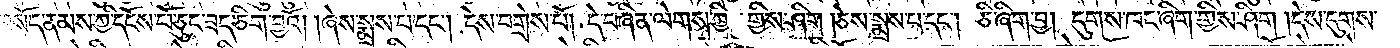བསོད་ནམས་ཀྱི་དངོས་པོ་ཅུང་ཟད་ཅིག་བྱའོ། །ཞེས་སྨྲས་པ་དང༌། དེས་བགྲེས་པོ། དེ་བཞིན་ལེགས་ཀྱི་གྱིས་ཤིག །ཅེས་སྨྲས་པ་དང༌། ཅི་ཞིག་བྱ། དུགས་ཁང་ཞིག་གིས་ཤིག །དེས་དུགས་
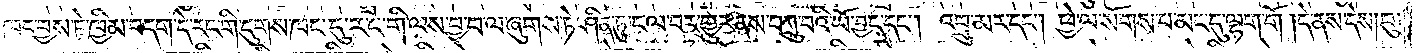ཁང་བྱས་ཏེ་ཁྱིམ་བདག་དེ་རང་གི་དུགས་ཁང་དུ་རང་གི་ལས་བྱ་བ་ལ་ཞུགས་ཏེ་ཤིན་ཏུ་ངལ་བར་གྱུར་ནས་བཀྲུ་བའི་ཡོ་བྱད་དང༌། འབྲུ་མར་དང༌། ཕྱེ་ལ་སོགས་པ་མང་དུ་ལྷག་གོ །དེ་ནས་དེས། བུ་
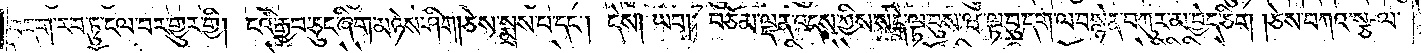བདག་རབ་ཏུ་ངལ་བར་གྱུར་གྱི། ངའི་རྒྱབ་ཅུང་ཞིག་མཉེས་ཤིག །ཅེས་སྨྲས་པ་དང༌། དེས། ཡབ། བཅོམ་ལྡན་འདས་ཀྱིས་སེངྒེ་ལྟ་བུས་ཝ་ལྟ་བུ་དག་ལ་བསྙེན་བཀུར་མ་བྱེད་ཅིག །ཅེས་བཀའ་སྩལ་
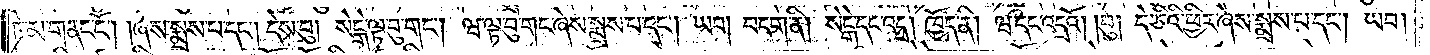ཏེ་མ་གནང་ངོ༌། །ཞེས་སྨྲས་པ་དང༌། དེས་བུ། སེངྒེ་ལྟ་བུ་གང༌། ཝ་ལྟ་བུ་གང་ཞེས་སྨྲས་པ་དང༌། ཡབ། བདག་ནི། སེངྒེ་དང་འདྲ། ཁྱོད་ནི། ཝ་དང་འདྲའོ། །བུ། དེ་ཅིའི་ཕྱིར་ཞེས་སྨྲས་པ་དང༌། ཡབ།
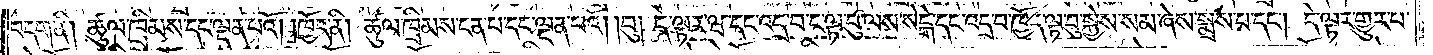བདག་ནི། ཚུལ་ཁྲིམས་དང་ལྡན་པའོ། །ཁྱོད་ནི། ཚུལ་ཁྲིམས་ངན་པ་དང་ལྡན་པའོ། །བུ། དེ་ལྟར་ཝ་དང་འདྲ་བ་ང་ལྟ་བུ་ལས་སེངྒེ་དང་འདྲ་བ་ཁྱོད་ལྟ་བུ་སྐྱེས་སམ་ཞེས་སྨྲས་པ་དང༌། དེ་ལྟར་གྱུར་པ་
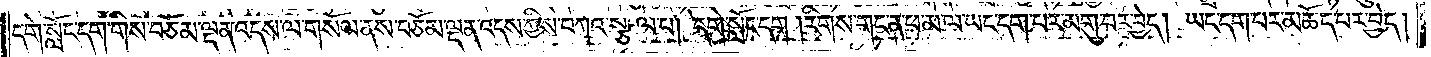དགེ་སློང་དག་གིས་བཅོམ་ལྡན་འདས་ལ་གསོལ་ནས་བཅོམ་ལྡན་འདས་ཀྱིས་བཀའ་སྩལ་པ། དགེ་སློང་དག །རིགས་གང་ན་ཕ་མ་ལ་ཡང་དག་པར་མགུ་བར་བྱེད། ཡང་དག་པར་མཆོད་པར་བྱེད།
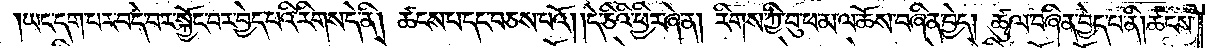ཡང་དག་པར་བདེ་བར་སྐྱོང་བར་བྱེད་པའི་རིགས་དེ་ནི། ཚངས་པ་དང་བཅས་པའོ། །དེ་ཅིའི་ཕྱིར་ཞེ་ན། རིགས་ཀྱི་བུ་ཕ་མ་ལ་ཆོས་བཞིན་བྱེད། ཚུལ་བཞིན་བྱེད་པ་ནི། ཚངས་
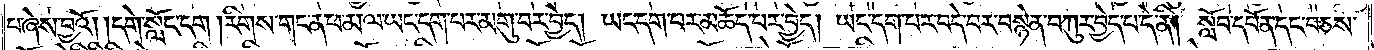པ་ཞེས་བྱའོ། །དགེ་སློང་དག །རིགས་གང་ན་ཕ་མ་ལ་ཡང་དག་པར་མགུ་བར་བྱེད། ཡང་དག་པར་མཆོད་པར་བྱེད། ཡང་དག་པར་བདེ་བར་བསྙེན་བཀུར་བྱེད་པ་དེ་ནི། སློབ་དཔོན་དང་བཅས་
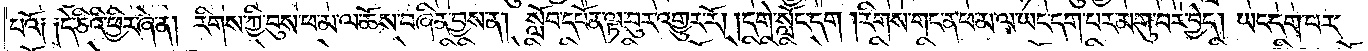པའོ༑ ༑དེ་ཅིའི་ཕྱིར་ཞེ་ན། རིགས་ཀྱི་བུས་ཕ་མ་ལ་ཆོས་བཞིན་བྱས་ན། སློབ་དཔོན་ལྟ་བུར་འགྱུར་རོ། །དགེ་སློང་དག །རིགས་གང་ན་ཕ་མ་ལ་ཡང་དག་པར་མགུ་བར་བྱེད། ཡང་དག་པར་
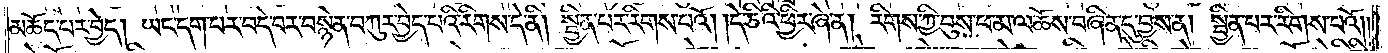མཆོད་པར་བྱེད། ཡང་དག་པར་བདེ་བར་བསྙེན་བཀུར་བྱེད་པའི་རིགས་དེ་ནི། སྦྱིན་པར་རིགས་པའོ། །དེ་ཅིའི་ཕྱིར་ཞེ་ན། རིགས་ཀྱི་བུས་ཕ་མ་ལ་ཆོས་བཞིན་དུ་བྱས་ན། སྦྱིན་པར་རིགས་པའོ༎
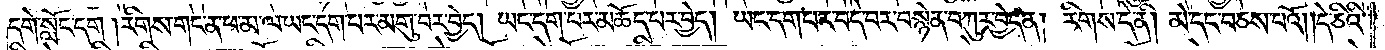དགེ་སློང་དག །རིགས་གང་ན་ཕ་མ་ལ་ཡང་དག་པར་མགུ་བར་བྱེད། ཡང་དག་པར་མཆོད་པར་བྱེད། ཡང་དག་པར་བདེ་བར་བསྙེན་བཀུར་བྱེད་ན། རིགས་དེ་ནི། མེ་དང་བཅས་པའོ། །དེ་ཅིའི་
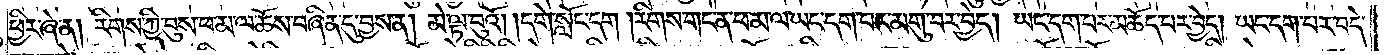ཕྱིར་ཞེ་ན། རིགས་ཀྱི་བུས་ཕ་མ་ལ་ཆོས་བཞིན་དུ་བྱས་ན། མེ་ལྟ་བུའོ། །དགེ་སློང་དག །རིགས་གང་ན་ཕ་མ་ལ་ཡང་དག་པར་མགུ་བར་བྱེད། ཡང་དག་པར་མཆོད་པར་བྱེད། ཡང་དག་པར་བདེ་
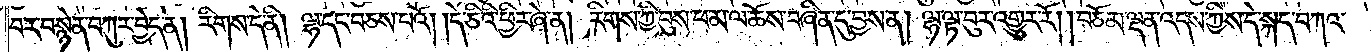བར་བསྙེན་བཀུར་བྱེད་ན། རིགས་དེ་ནི། ལྷ་དང་བཅས་པའོ། །དེ་ཅིའི་ཕྱིར་ཞེ་ན། རིགས་ཀྱི་བུས་ཕ་མ་ལ་ཆོས་བཞིན་དུ་བྱས་ན། ལྷ་ལྟ་བུར་འགྱུར་རོ། །བཅོམ་ལྡན་འདས་ཀྱིས་དེ་སྐད་བཀའ་
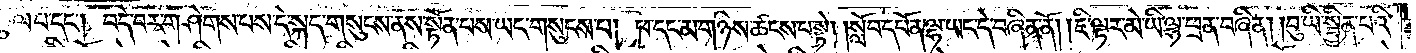སྩལ་པ་དང༌། བདེ་བར་གཤེགས་པས་དེ་སྐད་གསུངས་ནས་སྟོན་པས་ཡང་གསུངས་པ། ཕ་དང་མ་གཉིས་ཚངས་པ་སྟེ། །སློབ་དཔོན་ལྷ་ཡང་དེ་བཞིན་ནོ། །ཇི་ལྟར་མེ་ཡི་ལྷ་ཕྲན་བཞིན། །བུ་ཡི་སྦྱིན་པའི་
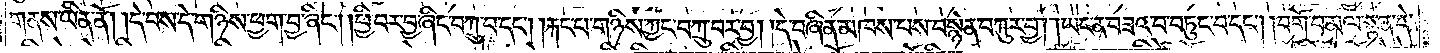གནས་ཡིན་ནོ། །དེ་བས་དེ་གཉིས་ཕྱག་བྱ་ཞིང༌། །ཕྱི་བར་བྱ་ཞིང་བཀྲུ་བ་དང༌། །རྐང་པ་གཉིས་ཀྱང་བཀྲུ་བར་བྱ། །དེ་བཞིན་མཁས་པས་བསྙེན་བཀུར་བྱ། །ཡང་ན་བཟའ་བ་བཏུང་བ་དང༌། །བགོ་བ་མལ་སྟན་དེ་
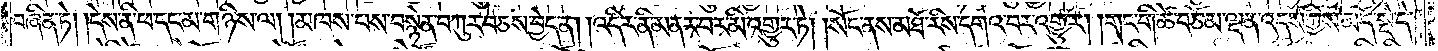བཞིན་ཏེ། །དེས་ནི་ཕ་དང་མ་གཉིས་ལ། །མཁས་པས་བསྙེན་བཀུར་བཅས་བྱེད་ན། །འདིར་ནི་མནར་བར་མི་འགྱུར་ཏེ། །སོང་ནས་མཐོ་རིས་དགའ་བར་འགྱུར། །གང་གི་ཚེ་བཅོམ་ལྡན་འདས་ཀྱིས་མདོ་སྡེ་དེ་
